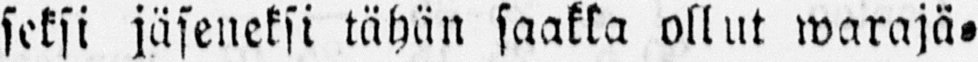seksi jäseneksi tähän saakka ollut warajä-
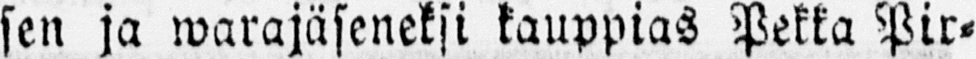sen ja warajäseneksi kauppias Pekka Pir-
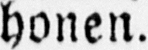honen.
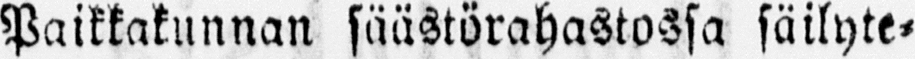Paikkakunnan säästörahastossa säilyte-
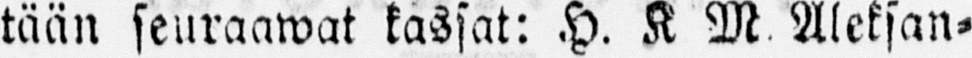tään seuraawat kassat: H. K. M. Aleksan-
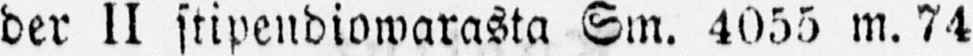der II stipendiowarasta Sm. 4055 m. 74
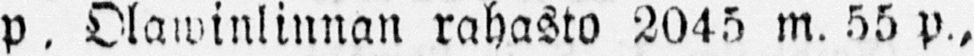p. Olawinlinnan rahasto 2045 m. 55 p.,
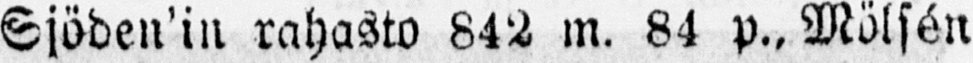Sjöden'in rahasto 842 m. 84 p., Mölsén
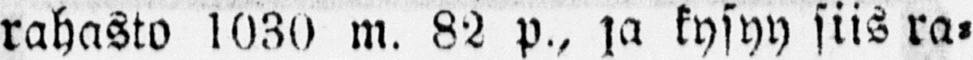rahasto 1030 m. 82 p., ja kysyy siis ra-
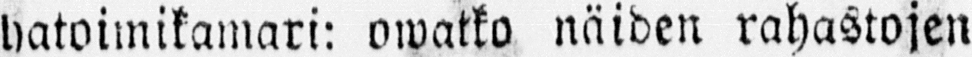hatoimikamari: owatko näiden rahastojen
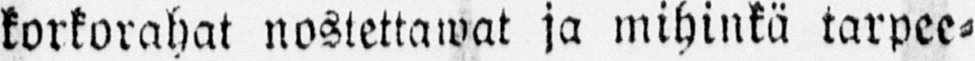korkorahat nostettawat ja mihinkä tarpee-
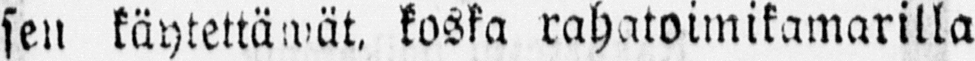sen käytettäwät, koska rahatoimikamarilla
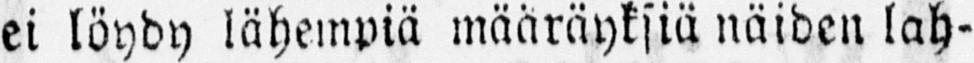ei löydy lähempiä määräyksiä näiden lah-
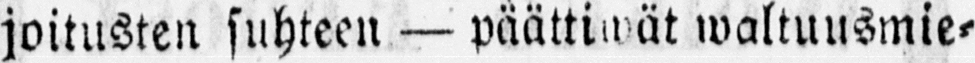joitusten suhteen — päättiwät waltuusmie-
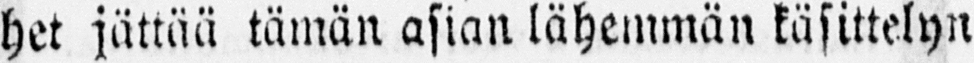het jättää tämän asian lähemmän käsittelyn
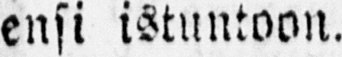ensi istuntoon.
